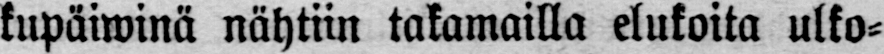kupäiwinä nähtiin takamailla elukoita ulko-
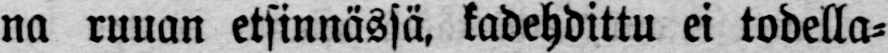na ruuan etsinnässä, kadehdittu ei todella-
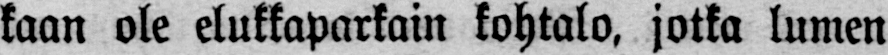kaan ole elukkaparkain kohtalo, jotka lumen
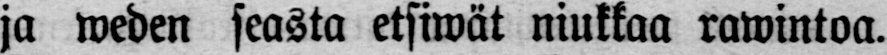ja weden seasta etsiwät niukkaa rawintoa.
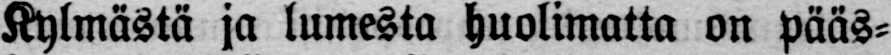Kylmästä ja lumesta huolimatta on pääs-
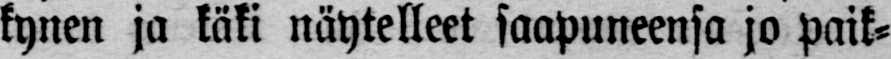kynen ja käki näytelleet saapuneensa jo paik-
